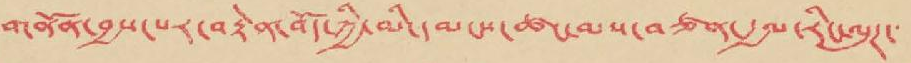གནོན་བྱས་པར་བརྟེན་བོད་ཀྱི་མི་དམངས་ཚང་མས་བཙན་རྒྱལ་རིང་ལུཊ་
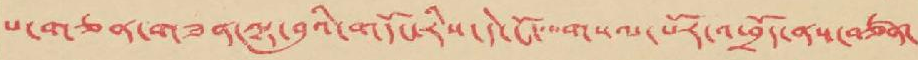པ་གཅན་གཟན་ལྟ་བུའི་གདོང་རིས་དེ་ངོ་་་་གསལ་པོར་འཕྲོད་ནས་བཙན་
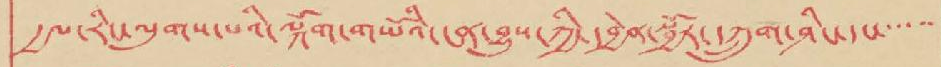རྒྱལ་རིང་ལུགས་པའི་ལྐོག་གཡོའི་ངན་བྱུས་ཀྱི་དབྱེན་སྦྱོར་དཀྲུག་ཤིང་དང་་་་་་
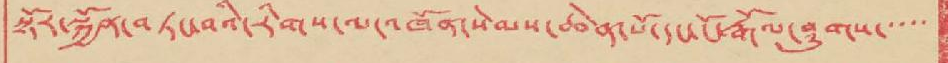སྟོར་སྐྱོན་བཏང་བའི་རིགས་ལ་འཁོན་སེམས་ཆེན་པོ་དང་ངོ་རྒོལ་ཤུགས་་་་་
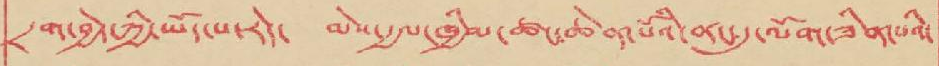དྲག་བྱེད་ཀྱི་ཡོད་པ་རེད་ མེས་རྒྱལ་ཁྱིམ་ཚང་ཆེན་པོའི་ནང་དུ་ལོག་ཟིན་པའི་
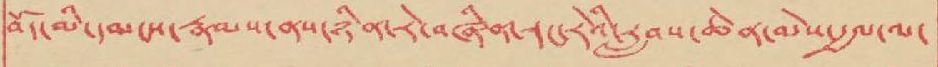བོད་མི་དམངས་རྣམས་ནས་ཉིན་རེ་བཞིན་རང་རེའི་རླབས་ཆེན་མེས་རྒྱལ་ལ་
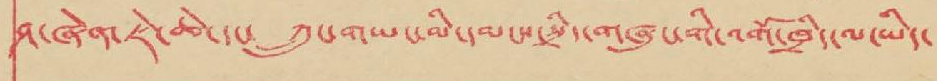ཤ་ཞེན་ཇེ་ཆེ་དང་ ཀྲུང་གཡང་མི་དམངས་སྲིད་གཞུང་གི་འགོ་ཁྲིད་ལ་ཡིད་
